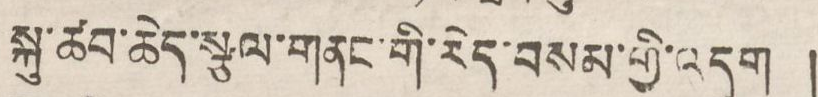སྐུ་ཚབ་ཆེད་སྩལ་གནང་གི་རེད་བསལ་གྱི་འདུག །
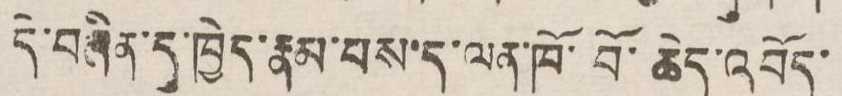དེ་བཞིན་དུ་ཁྱེད་རྣམ་པས་ད་ལན་ཁོ་བོ་ཆེད་འབོད་
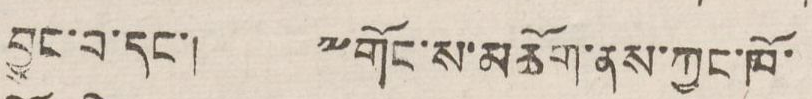བྱུང་བ་དང་། ༸གོང་ས་མཆོག་ནས་ཀྱང་ཁོ་
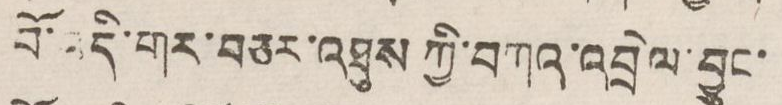བོ་འདི་གར་བཅར་འཐུས ཀྱི་བཀའ་འབྲེལ་བྱུང་
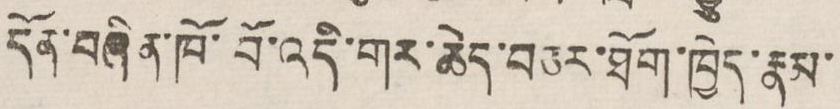དོན་བཞིན་ཁོ་བོ་འདི་གར་ཆེད་བཅར་ཐོག་ཁྱེད་རྣམ་
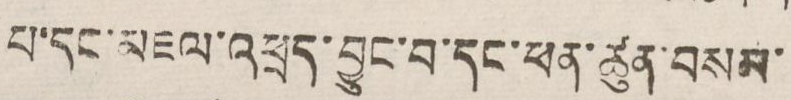པ་དང་འཇམ་འཕྲད་བྱུང་བ་དང་ཕན་ཚུན་བསམ་
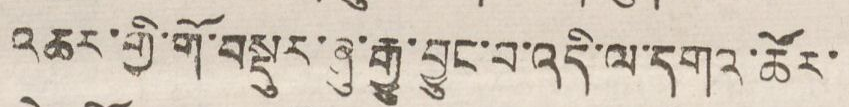འཆར་གྱི་གོ་བསྡུར་ཞུ་རྒྱུ་བྱུང་བ་འདི་ལ་དགའ་ཚོར་
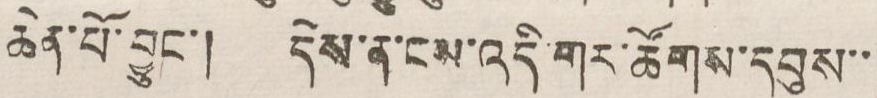ཆེན་པོ་བྱུང་། དེས་ན་ངས་འདི་གར་ཚོགས་དབུས་་
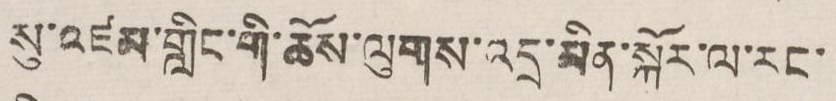སུ་འཛམ་གླིང་གི་ཆོས་ལུགས་འདྲ་མིན་སྐོར་ལ་རང་
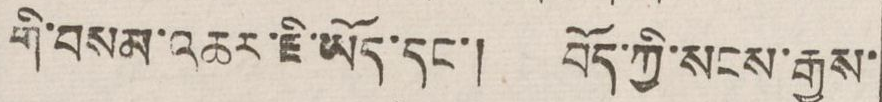གི་བསམ་འཆར་ཇི་ཡོད་དང་། བོད་ཀྱི་སངས་རྒྱས་
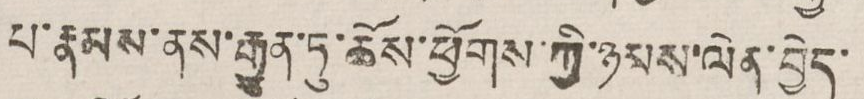པ་རྣམས་ནས་རྒྱུན་ཏུ་ཆོས་ཕྱོགས་ཀྱི་ཉམས་ལེན་བྱེད་
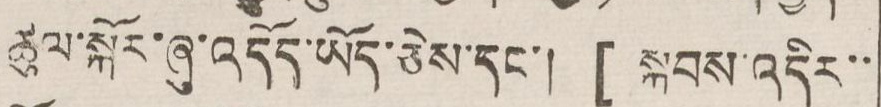ཚུལ་སྐོར་ཞུ་འདོད་ཡོད་ཅེས་དང་། [ སྐབས་འདིར་་
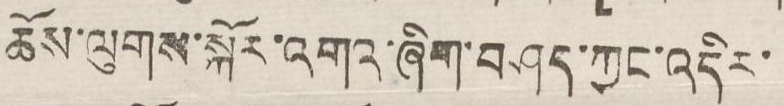ཆོས་ལུགས་སྐོར་འགའ་ཞིག་བཤད་ཀྱང་འདིར་
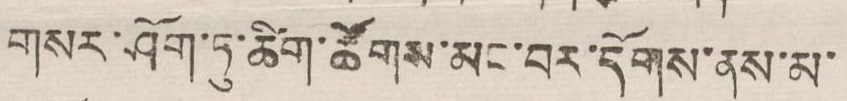གསར་ཤོག་ཏུ་ཚིག་ཚོགས་མང་བར་དོགས་ནས་མ་
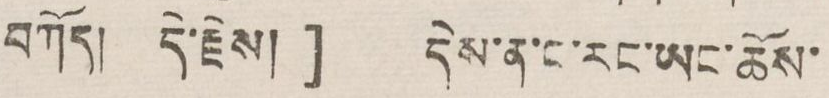བཀོད། དེ་རྗེས། ] དེས་ན་ང་རང་ཡང་ཆོས་
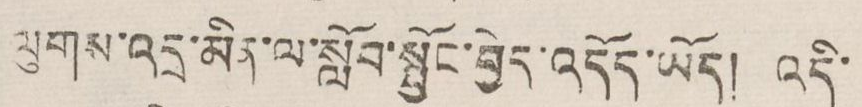ལུགས་འདྲ་མིན་ལ་སློབ་སྦྱོང་བྱེད་འདོད་ཡོད། འདི་
